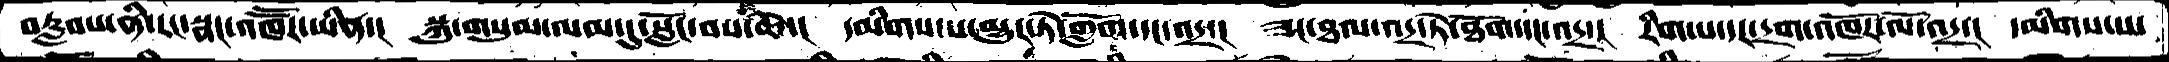བརླབས་ནི་རང་སྣང་འཁཽར་ཡིན་།  སྐུ་གསུམ་ལམ་དུ་སློང་བས་ཆེ་།  དམིགས་པ་མྱུར་ཏེ་གློག་དང་འདྲ་།  ཟང་ཐལ་འདྲ་ཏེ་ཐོག་དང་འདྲ་།  རིག་པ་དང་དྲག་འཁོར་ལོ་འདྲ་།  དམིགས་པ་
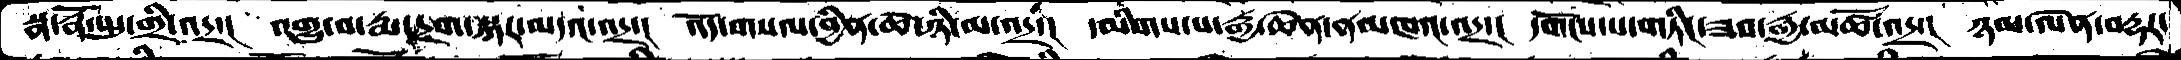སྣ་རྣོ་སྤུ་གྲི་འདྲ་།  འགྱུ་བ་རྨ་དྲག་སྐར་མདའ་འདྲ་།   འོད་གསལ་བྱིན་ཆེ་ཉི་མ་འདྲ་།  དམིགས་པ་རྒྱ་ཆེན་ནམཁའ་འདྲ་།  དགོངས་པ་གཏིང་ཟབ་རྒྱ་མཚོ་འདྲ་།  ཉམ་ལེན་བརྡར་
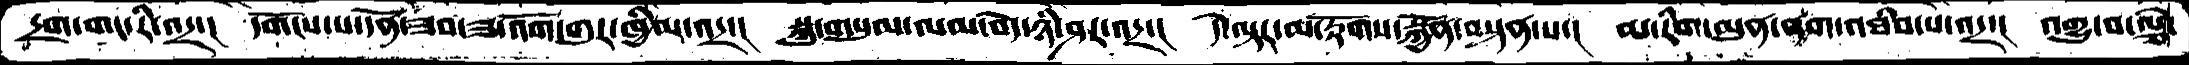དྲག་གང་རི་འདྲ་།  དགོངས་པ་དོན་ཟབ་ཟ་འོག་གུར་ཁྱིམ་འདྲ་།  སྐུ་གསུམ་ལམ་བདེ་ཉི་ཤར་འདྲ་།  དེ་ལྟར་མ་རྟོགས་སྐྱོན་བསྟན་པ་།  མ་རིག་མུན་ནག་འཐིབ་པ་འདྲ་།  འགྱུ་བ་ལྕེ་
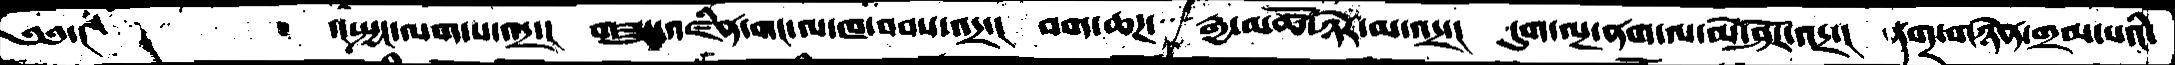༄༅་།        ་།སྤྱང་ལག་པ་འདྲ་།   གཟུང་འཛིན་གང་ལ་ཁ་བབས་འདྲ་།  བག་ཆཌ་   རྒྱ་མཚོ་ཉེར་མ་འདྲ་།  དུག་ལྔ་ནག་ལ་མེ་ཤོར་འདྲ་།  དགྲ་གཉེན་གྲམ་པའི་
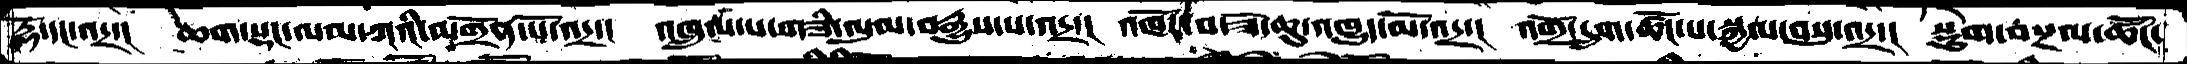རྡོ་དང་འདྲ་།  ཆག་སྡང་ལམ་ཀའི་མགྲོན་པོ་འདྲ་།  འཁྲུངས་པ་གཟི་ལུམ་བརྒྱུས་པ་འདྲ་།  འཁོར་བ་ཟོ་ཆུ་འཁྱུད་མོ་འདྲ་།  འགྲོ་དྲུག་ཚོང་པ་སྐྱལ་བསུ་འདྲ་།   སྡུག་བསྔལ་ཚོང་
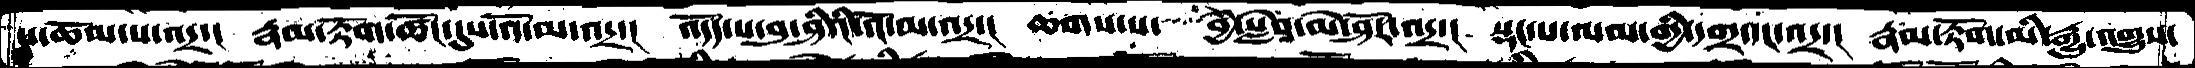པ་ཆོམ་པ་འདྲ་།  རྣམ་རྟོག་ཚོང་དུས་འོ་མ་འདྲ་།   འདོད་པ་བུ་ཤིའི་འོ་མ་འདྲ་།  ཆགས་པ་   བྱེ་སླེབ་མེ་ཤོར་འདྲ་།  སྡང་པ་ལམ་གྱི་དགྲ་དང་འདྲ་།  རྣམ་རྟོག་མི་རྒྱུ་འགྱུས་
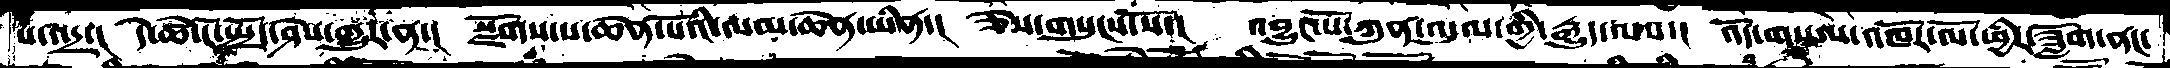པ་འདྲ་།  དེ་ཚེ་ངོ་སྤྲོད་ཤེས་གྱུར་ན་།  སྫོགས་པ་ཆེན་པོའི་ལམ་ཆེན་ཡིན་།  ཅེས་གསུངས་སོ་།   འབྱུང་པོ་ཀུན་འདུལ་གྱི་རྒྱུད་ལས་།  འོད་གསུམ་འཁོར་ལོ་ཕྱིར་ཟློག་ནང་
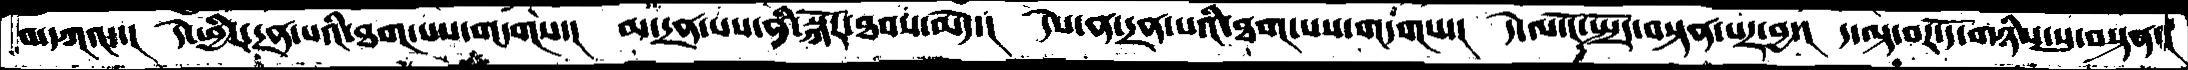བ་དཀའ་།  དེ་ཕྱིར་དྲན་པའི་ཐག་པས་གདགས་།  མ་དྲན་པས་ནི་སྐོར་ཐབས་མེད་།  དེས་ན་དྲན་པའི་ཐག་པས་གདགས་།  དེ་ལ་ངོ་སྤྲོད་བསྟན་པར་བྱ་།  ད་ལྟ་བར་དོ་གཉིས་སུ་བསྟན་།
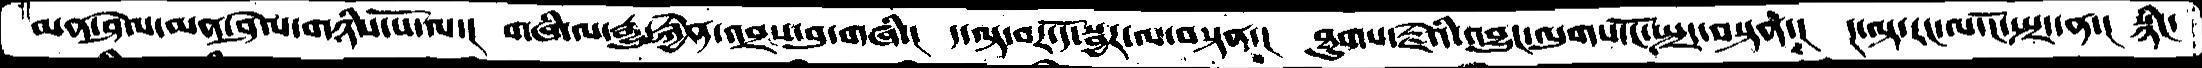མན་ཤེལ་མན་ཤེལ་གཉིས་པོ་ལ་།  གཞི་ལ་རྒྱུ་རྐྱེན་འབྲས་བུ་གཞི་།  ད་ལྟ་བར་དོ་སྦྱར་ལ་བསྟན་།  ཐུགས་རྗེའི་འབྱུང་ལུགས་ངོ་སྤྲད་བསྟན་།   ད་ལྟ་རང་ལ་ངོ་སྤྲད་ན་།  སྙིང་
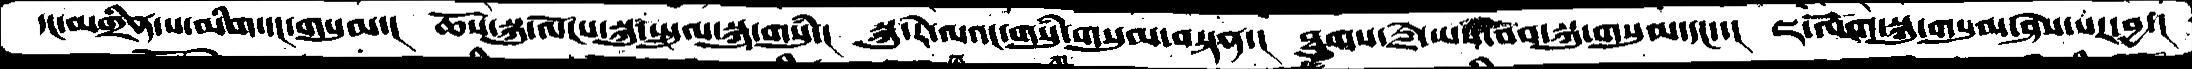དང་མགྲིན་པ་མིག་དང་གསུམ་།  ཆོས་སྐུ་ལོངས་སྐུ་སྤྲུལ་སྐུ་གསུཾ་།  སྐུ་རེ་ལའང་གསུཾ་གསུམ་བསྟན་།  ཐུགས་རྗེ་ཡས་བབ་སྐུ་གསུམ་དང་་།  ཇ་ལོག་སྐུ་གསུམ་ཤེས་པར་བྱ་།
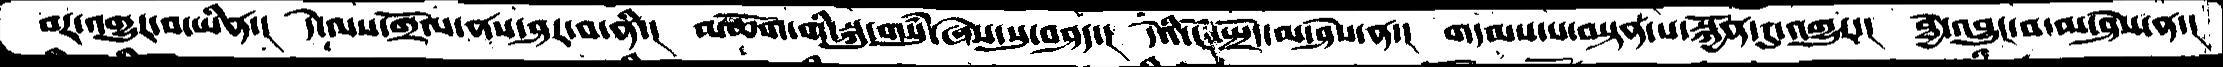བར་འགྱུར་བ་ཡིན་།  དེ་ལས་གྲོལ་ནས་ཤར་བ་ནི་།   མཆོག་གི་སྐུ་གསུཾ་ཞེས་སུ་བཤད་།  དེའི་ངོ་སྤྲོད་མ་ཤེས་ན་།  གདམས་པ་བསྟན་པ་སྐྱོན་དུ་འགྱུར་།  ཐྱེ་འབྱུང་བ་མ་ཤེས་ན་།
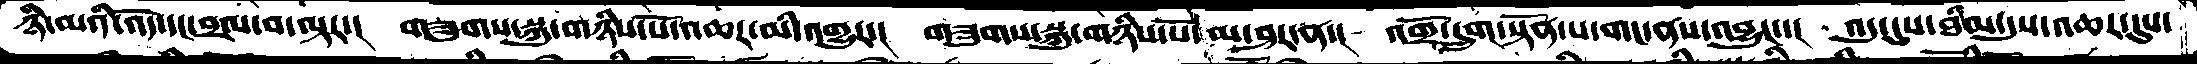ཉི་མའི་འོད་དང་བྲལ་བ་ལྟར་།  གཟུགས་སྐུ་གཉིས་པོ་འཆར་མི་འགྱུར་།  གཟུགས་སྐུ་གཉིས་པོ་མ་ཤར་ན་།  འགྲོ་དྲུག་སྟོན་པ་གང་ནས་འབྱུང་་།  འདུ་དུས་ཐིམ་དུས་འཆར་དུས་
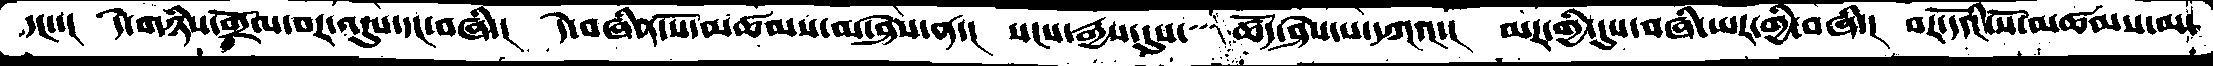དང་།  དེ་གཉིས་གྲོལ་བར་འདུས་དང་བཞི་།  དེ་བཞིན་སོ་མཚམས་མ་ཤེས་ན་།  སངས་རྒྱས་དུས་  ཚོད་ཤེས་པ་དཀའ་།  མར་གྱི་དུས་བཞི་ཡར་གྱི་བཞི་།  བར་དོའི་སོ་མཚམས་མ་
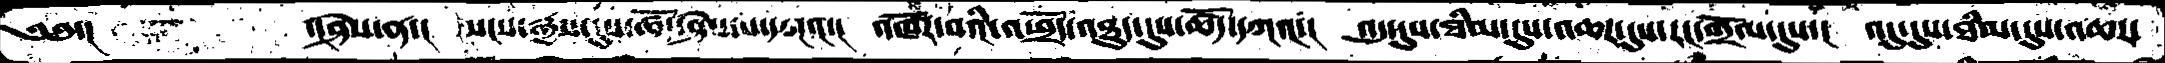༄༅་།       ་།ཤེས་ན་།  སངས་རྒྱས་དུས་ཚོད་ཤེས་པ་དཀའ་།   འཁོར་བའི་འཕྲོད་འཐུད་དུས་ཚོད་དཀའ་།  འདུ་དུས་ཐིམ་དུས་འཆར་དུས་རང་གྲོལ་དུས་།  འདུ་དུས་ཐིམ་དུས་འཆར་
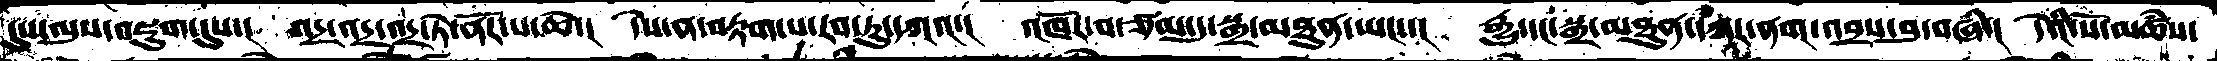དུས་ལུས་འཇུག་དུས་།  འདྲ་འདྲ་འདྲ་ཏེ་ནོར་ས་ཆེ་།   དེས་ན་བརྟག་པ་རབ་ཏུ་དཀའ་།  འཁོར་བ་ཙམ་དུ་སྒྲ་མཐུན་ཡང་་།  རྒྱུ་དང་སྒྲ་མཐུན་དཀར་ནག་འབྲས་བུ་བཞི་།  དེའི་སོ་མཚཾས་
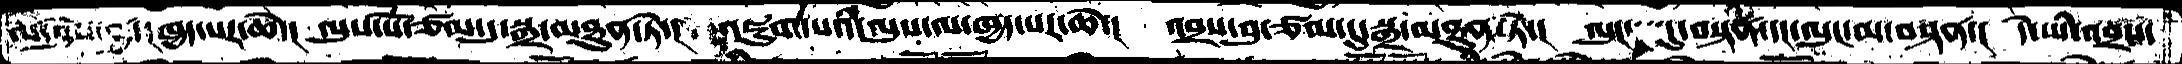ལ་ཤེས་བྱ་ཁྱད་པར་ཆེ་།  ལུས་པོ་ཙམ་དུ་སྒྲ་མཐུན་ཏེ་།  འཇུག་པའི་ལུས་ལ་ཁྱད་པར་ཆེ་།  འབྲས་བུ་ཙམ་དུ་སྒྲ་མཐུན་ཏེ་།  ལུང་   དུ་བསྟན་དང་ལུང་མ་བསྟན་།  དེ་ཡི་འབྲས་
